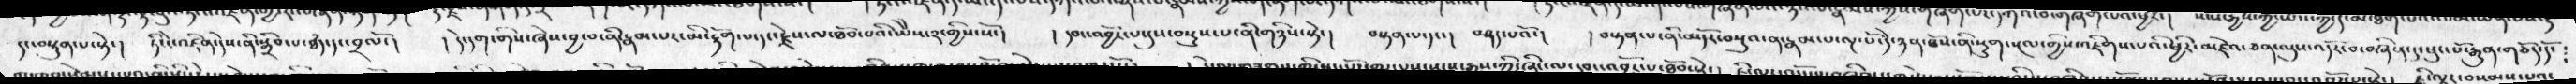དང་བསྟུན་པ་སྟེ་།  ཏི་ངེ་འཛིན་དེས་ནི་སྒྲིབ་པ་ཐཾད་དང་བྲལོ་།  ། དེ་དག་གིས་ཞེས་བྱ་བ་ནི་རྣམ་པར་མི་རྟོག་པ་དང་རྗེས་ལ་ཐོབ་པའི་ཡེེས་༢་གྱིས་སོ་།  ། དབང་འབྱོར་པ་དུས་བསྡུས་པ་ནི་གཉིས་སྟེ་།  བསྟན་པ་དང་།  བཤད་པའོ་།  ། བསྟན་པ་ནི་མདོར་བསྡུའ་ན་རྣམ་པ་ལྔ་པོ་དེ་ཉན་ཐོས་ནི་སྡུག་སྔལ་གྱིས་འཇིགས་པའི་ཕྱིར་མཛེའ་ཅན་ལུས་འདོར་བ་བཞིན་དུ་ཕུང་པོ་རྒྱུན་གཅོད་དོ་
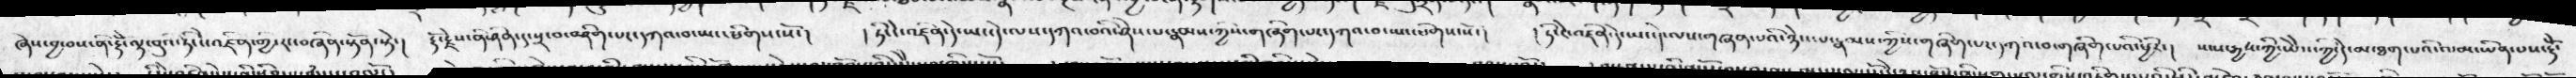ཞེས་བྱ་བས་ནི་རྡོེ་ལྟ་བུའི་ཏི་ངེ་འཛིན་གྱི་རང་བཞིན་སྟོན་སྟེ་།  རྡོ་རྗེས་ནི་ཤིན་དུ་སྲ་བ་བཤིག་པར་དཀའ་བ་ཡང་ཕིགས་སོ་།  ། ཏེ་ངེ་འཛིན་དེ་ཡང་དེ་ལས་དཀའ་བའི་ཤེས་པ་རྣམས་ཀྱིས་གཞིག་པར་དཀའ་བ་ཡང་ཕིགས་སོ་།  ། ཏི་ངེ་འཛིན་དེ་ཡང་དེ་ལས་གཞན་པའི་ཉེས་པ་རྣམས་ཀྱིས་གཞིག་པར་དཀའ་བ་གཞིག་པའི་ཕྱིར་།  སངས་རྒྱས་ཀྱི་ཡེེས་ཀྱི་དེ་མ་ཐག་པའི་ལམ་ཡིན་པས་རྡོེ་
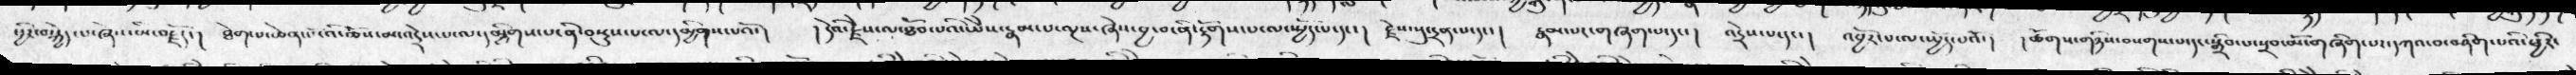ཕྱིར་བསྐྱེད་པ་ཞེས་མི་བརྗོད་།  ཐེག་པ་ཆེན་པོའི་ཆོས་མ་འདྲེས་པ་ལ་དམྱིགས་པ་ནི་བསྡུས་པ་ལ་དམྱིགས་པའོ་།  ། དེའི་རྗེས་ལ་ཐོབ་པའི་ཡེེས་རྣམ་པ་ལྔས་ཞེས་བྱ་བ་ནི་་རྟོགས་པ་ལ་སྤྱོད་པ་དང་།  རྗེས་སུ་དྲན་པ་དང་།  རྣམ་པར་གཞག་པ་དང་།  འདྲེས་པ་དང་།  འབྱོར་པ་ལ་སྤྱོད་པའོ་།   ། ཚོགས་གཉིས་བསགས་པ་དང་སྒྲིབ་པ་སྲབ་མོ་གཞིག་པར་དཀའ་བ་བཤིག་པའི་ཕྱིར་
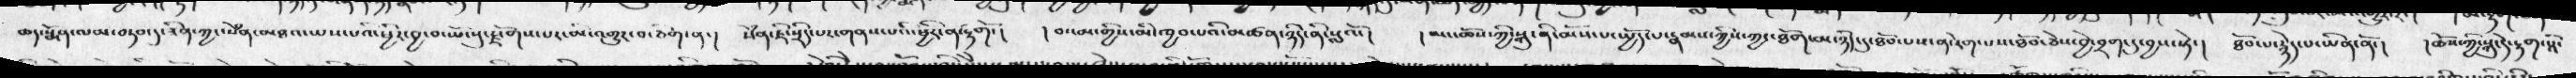ཆད་སྨོན་ལམ་བཏབ་དུ་ཟིན་ཀྱང་སེཾན་མཐའ་ཡས་པའི་ཕྱིར་བྱ་བ་ཡོངསུ་རྫོགས་པར་མི་འགྱུར་བ་ཅིག་ན་།  སེཾན་ཇི་སྲིད་པར་གནས་པའི་ཕྱིར་ན་རྟོག་།  ། བ་ངམ་གྱིས་མི་ཁྱབ་པའི་མཚན་ཉིད་ནི་སླའོ་།  ། མང་ཆོས་ཀྱི་སྐུ་ནི་མོས་པ་སྤྱོད་པ་རྣམས་ཀྱིས་ཀྱང་ཐོག་མ་ཉིད་དུ་ཐོབ་པས་ན་རེག་པས་ཐོབ་ཅེས་བྱེ་བྲག་དུ་བྱས་སྟེ་།  ཐོབ་པ་རྙེད་པ་ཡིན་ནོ་།  ། ཆོས་ཀྱི་སྐུ་དེ་རྟག་སྡི་
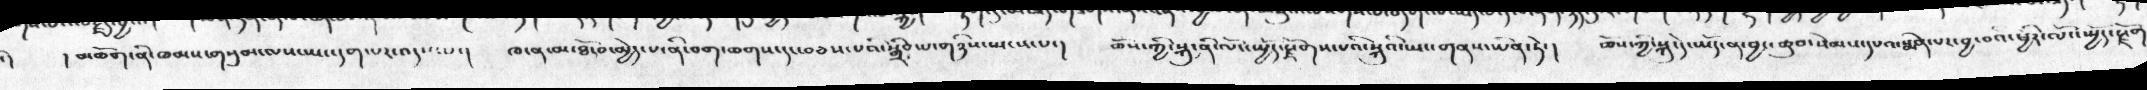མཆོག་ནི་ཁམས་གསུམ་ལས་ཡང་དག་པར་འདས་པ་།   ཁ་ན་མ་ཐོ་བ་མྱེད་པ་ནི་བག་ཆགས་དང་བཅས་པའི་སྒྲིབ་པ་གཉིས་སྤངས་པ་།    ཆོས་ཀྱི་སྐུ་ནི་ལོང་ཡྱོད་སྫོགས་པའི་སྐུའི་ཡང་གནས་ཡིན་ཏེ་།   ཆོས་ཀྱི་སྐུ་དེ་ཡོད་ན་བྱང་ཆུབ་སེམས་དཔའ་སྨིན་པར་བྱ་བའི་ཕྱིར་ལོང་ཡྱོད་སྫོགས་
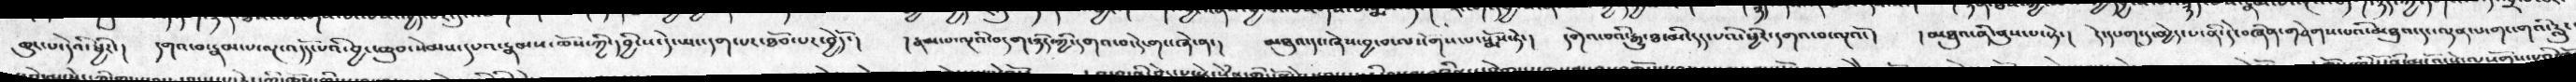ཆུང་པ་དེའི་ཕྱིར་།   དགའ་བ་རྣམ་པ་ལྔ་འདོད་པའི་བྱང་ཆུབ་སེམས་དཔའ་རྣམས་ཆོས་ཀྱི་དབྱིངས་དེ་ཡང་དག་པར་ཐོབ་པར་བྱེདོ་།   །  རྣམ་པ་ལྔའི་བདག་ཉི་གྱི་དགའ་བ་དེ་གང་ཞེ་ན་།  མཐུའ་དང་ཞེས་བྱ་པ་ལསོགས་པ་སྨོས་ཏེ་།   དགེའ་བའི་རྒྱུ་ཐ་མི་དདང་པའི་ཕྱིར་དགའ་བ་ལྔའོ་།   མཐུའ་ནི་ནུསཔ་སྟེ་།   དེ་དང་གང་དུ་མྱེད་པ་ནི་དེ་བཞིན་གཤེགས་པའི་མཐུའ་དང་ལྡན་པ་གང་གའི་རླུང་
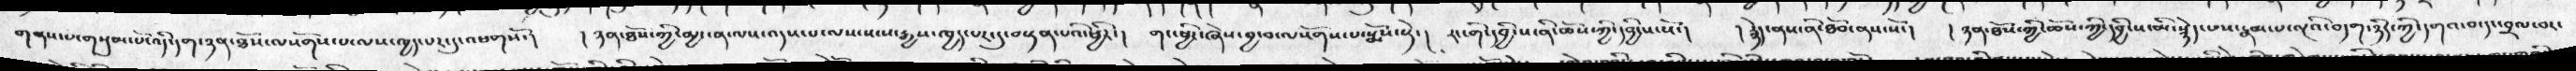གནས་པ་གསུམ་པོ་འདི་དག་ཉན་ཐོས་ལསོགས་པ་ལས་ཁྱད་པར་དུ་འཕགསོ་།  ། ཉན་ཐོས་ཀྱི་མྱང་ན་ལས་འདས་པ་ལས་སངས་རྒྱས་ཁྱད་པར་དུ་བསྟན་པའི་ཕྱིར་།   གང་ཕྱིར་ཞེས་བྱ་བ་ལསོགས་པ་སྨོས་སྟེ་།  རང་གི་དབྱིངས་ནི་ཆོས་ཀྱི་དབྱིངས་སོ་། ། རྙེད་ནས་ནི་ཐོབ་སནས་སོ་།  ། ཉན་ཐོས་ཀྱི་ཆོས་ཀྱི་དབྱིངས་མི་སྙེད་པས་རྣམ་པ་ལྔའི་བདག་ཉིད་ཀྱི་དགའ་བ་དང་བྲལ་བར་
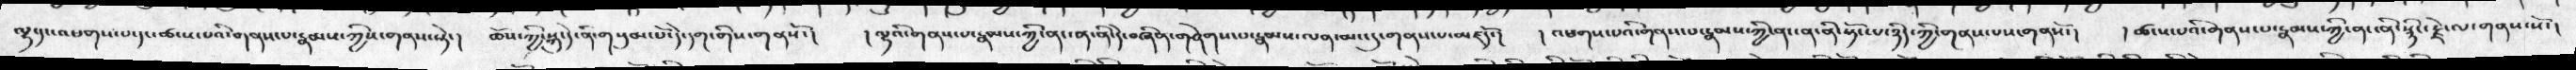ལྷ་དང་འཕགས་པ་དང་ཚངས་པའི་གནས་པ་རྣམས་ཀྱིས་གནས་སྟེ་།  ཆོས་ཀྱི་སྐུ་དེ་ནི་གསུམ་པོ་དེ་དག་གིས་གནསོ་།  ། ལྷའི་གནས་པ་རྣམས་ཀྱི་ནང་ན་ནི་དེ་བཞིན་གཤེགས་པ་རྣམས་ལན་མང་དུ་གནས་པ་མཛདོ་།  ། འཕགས་པའི་གནས་པ་རྣམས་ཀྱི་ནང་ན་སྟོང་པ་ཉིད་ཀྱི་གནས་པས་གནསོ་།   ཚངས་པའི་གནས་པ་རྣམས་ཀྱི་ནང་ནི་སྙིང་རྗེ་ལ་གནས་སོ་།
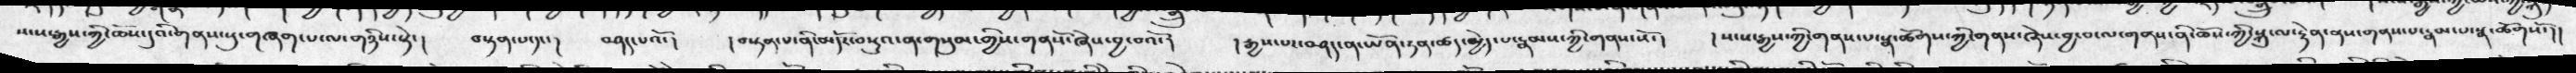སངས་རྒྱས་གྱི་ཆོས་དུའི་གནས་སུ་གཞག་པ་ལ་གཉིས་སྟེ་།   བསྟན་པ་དང་།   བཤད་པའོ་།   ། བསྟན་པ་ནི་མདོར་བསྡུའ་ན་གསུམ་གྱིས་གནསོ་ཞེས་བྱ་བའོ་།   ། རྒྱས་པར་བཤད་ན་ཡོན་ཏན་ཚད་མྱེད་པ་རྣམས་ཀྱི་གནས་སོ་།   །  སངས་རྒྱས་ཀྱི་གནས་པ་སྣ་ཚོགས་ཀྱི་གནས་ཞེས་བྱ་བ་ལ་གནས་ནི་ཆོས་ཀྱི་སྐུ་ལ་རྟེན་ནས་གནས་པ་རྣམ་པ་སྣ་ཚོགསོ་།
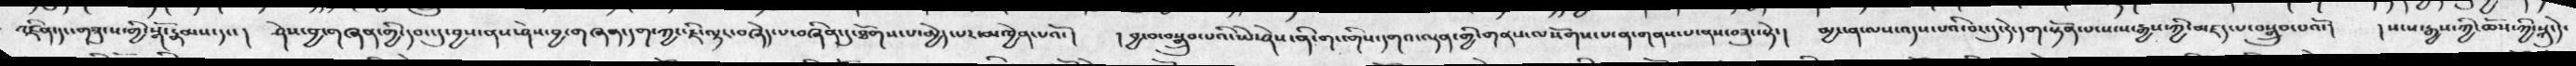འཛིན་དང་གཟུངས་གྱི་སྒོ་རྣམས་དང་།  ཤེས་བྱ་གཞན་གྱི་དབང་དུ་བྱས་ནས་ཤེས་བྱ་གཞན་དག་ཀྱང་ཇི་ལྟར་བཞེད་པ་བཞིན་དུ་ཐོགས་པ་མྱེད་པར་མཁྱེན་པའོ་།  ། བྱ་བ་བསྒྲུབ་པའི་ཡེ་ཤེས་ནི་གང་གིས་དགའ་ལྡན་གྱི་གནས་ལསོགས་པ་ན་གནས་པ་ནས་བཟུང་སྟེ་།   མྱ་ངན་ལས་འདས་པའི་བར་དུ་དེ་དག་སྟོན་པ་སངས་རྒྱས་ཀྱི་མཛད་པ་བསྒྲུབ་པའོ་།  དསངས་རྒྱས་ཀྱི་ཆོས་ཀྱི་སྐ་དེ་
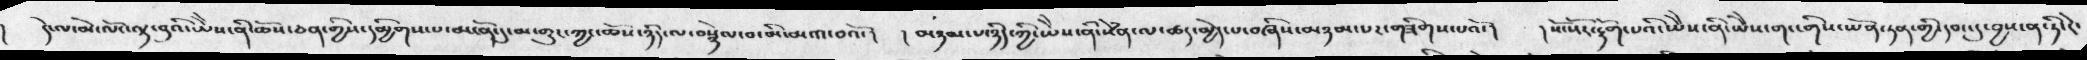།  དེ་ལ་མེ་ལོང་ལྟ་བུའི་ཡེེས་ནི་ཆོས་ཅན་གྱིས་དམྱིགས་པ་མངོན་དུ་མ་གུར་ཀྱང་ཆོས་ཉིད་ལ་བསྙེལ་བ་མི་མངའ་བའོ་།  ། མཉམ་པ་ཉིད་ཀྱི་ཡེེས་ནི་སེཾན་ལ་ཚད་མྱེད་པ་བཞིས་མཉམ་པར་གཟིགས་པའོ་།  ། སོ་སོར་རྟོག་པའི་ཡེེས་ནི་ཡེེས་གང་གིས་ཡོན་ཏན་གྱི་དབང་དུ་བྱས་ན་ཏི་ངེ་
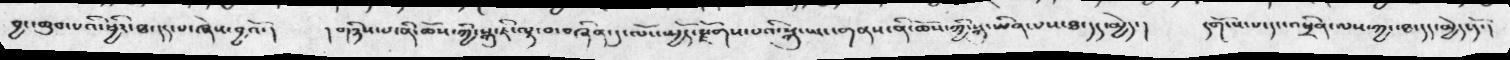བྱང་ཆུབ་པའི་ཕྱིར་ཐ་དད་པ་ཞེས་བྱའོ་།  །གཉིས་པ་ནི་ཆོས་ཀྱི་སྐུ་ཇི་ལྟ་བ་བཞིན་དུ་ལོང་སྤྱོད་རྫོགས་པའི་སྐུ་ཡང་གནས་ནི་ཆོས་ཀྱི་སྐུ་ཡིན་པས་ཐ་དད་མྱེད་།  དགོངས་པ་དང་འཕྲིན་ལས་ཀྱང་ཐ་དད་མྱེད་དོ་།
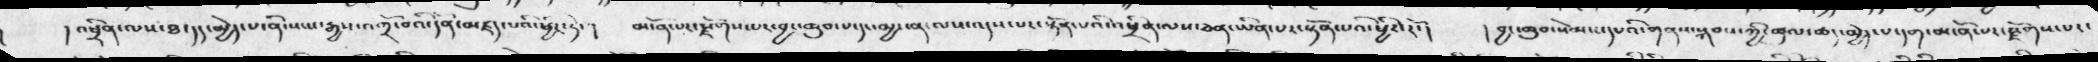། འཕྲིན་ལས་ཐ་དད་མྱེད་པ་ནི་སངས་རྒྱས་འགྲོ་བའི་དོན་མཛད་པའི་ཕྱིར་ཏེ་།  མངོན་པར་རྫོགས་པར་བྱང་ཆུབ་པ་དང་མྱ་ངན་ལས་འདས་པར་སྟོན་པའི་འཕྲིན་ལས་ཅན་ཡིན་པར་སྟོན་པའི་ཕྱིར་རོ་།  །བྱང་ཆུབ་སེམས་དཔའི་གནས་སྐབས་ཀྱི་ཚུལ་ཆད་མྱེད་པ་དག་མངོན་པར་རྫོགས་པར་
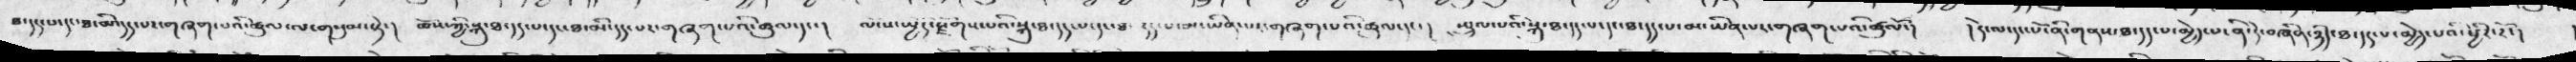ཐ་དད་པ་དང་ཐ་མི་དད་པ་གཞག་པའི་ཚུལ་ལ་གསུམ་སྟེ་།   ཆོས་ཀྱི་སྐུ་ཐ་དད་པ་དང་ཐ་མི་དད་པར་གཞག་པའི་ཚུལ་དང་།    ལོངས་ཡྱོད་སྫོགས་པའི་སྐུ་ཐ་དད་པ་དང་ཐ་དད་པ་མ་ཡིན་པར་གཞག་པའི་ཚུལ་དང་།   ཡྲུལ་པའི་སྐུ་ཐ་དད་པ་དང་ཐ་དད་པ་མ་ཡིན་པར་གཞག་པའི་ཚུལོ་།   ། དེ་ལ་དང་པོ་ནི་གནས་ཐ་དད་པ་མྱེད་པ་ནི་དེ་བཞིན་ཉིད་ཐ་དད་པ་མྱེད་པའི་ཕྱིར་རོ་། ་་
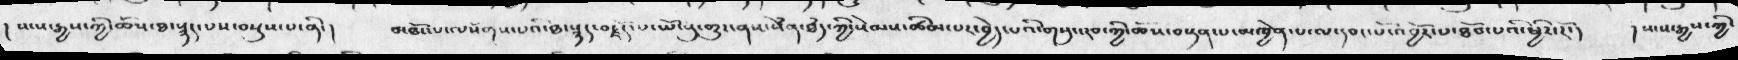།  སངས་རྒྱས་ཀྱི་ཆོས་ཐ་སྙད་པས་བསྡུས་པ་ནི་།  མཐོང་པ་ལསོགས་པའི་ཐ་སྙད་བརྗོད་པ་ཡོངསུ་གྱུར་ནས་སེཾན་ཐཾད་ཀྱི་སེམས་ཚིམ་པར་བྱེད་པའི་གསུང་རབ་ཀྱི་ཆོས་བསྟན་པ་མཁྱེན་པ་ལ་དབང་པོ་འབྱོར་པ་ཐོབ་པའི་ཕྱིར་རོ་།  །སངས་རྒྱས་ཀྱི་
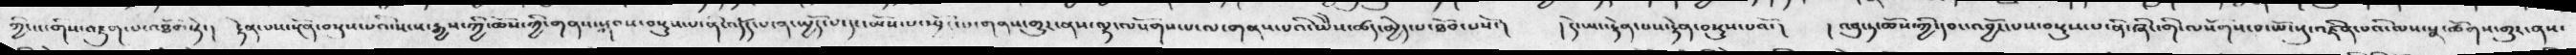ཀྱི་ས་གིས་བརྟག་པ་འཐོབ་སྟེ་།   རྟེན་པས་སྔོན་བསྡུས་པའི་སངས་རྒྱས་ཀྱི་ཆོས་ཀྱི་གནས་སྐབས་བསྡུས་པ་ནི་འདོད་པ་ན་ཡྱོད་པ་དང་མོས་པ་ཡྱོད་པ་གནས་གྱུར་ནས་ལྷ་ལསོགས་པ་ལ་གནས་པའི་ཡེེས་ཚད་མྱེད་པ་ཐོབ་པསོ་།    ། དེ་ཡང་རྟེན་པས་རྟེན་བསྡུས་པའོ་།    ། འབུ་ཏ་ཆོས་ཀྱི་དབང་འབྱོར་པས་བསྡུས་པ་ནི་ཞིང་གི་ལསོགས་བ་ཡོངསུ་༷འཛིན་པའི་ལས་སྣ་ཚོགས་གྱུར་ནས་
